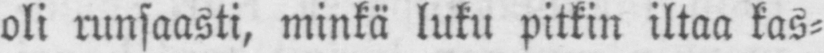oli runsaasti, minkä luku pitkin iltaa kas-
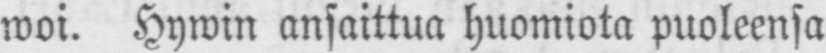woi. Hywin ansaittua huomiota puoleensa
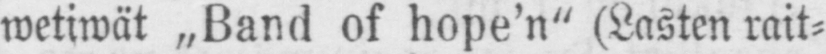wetiwät „Band of hope'n" (Lasten rait-
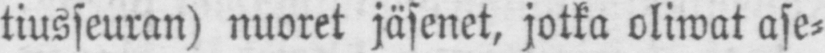tiusseuran) nuoret jäsenet, jotka oliwat ase-
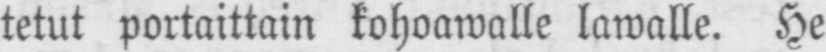tetut portaittain kohoawalle lawalle. He
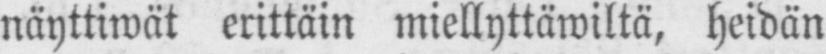näyttiwät erittäin miellyttäwiltä, heidän
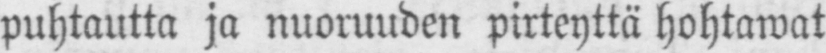puhtautta ja nuoruuden pirteyttä hohtawat
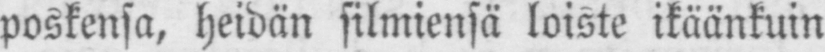poskensa, heidän silmiensä loiste ikäänkuin
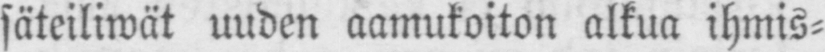säteiliwät uuden aamukoiton alkua ihmis-
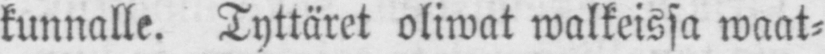kunnalle. Tyttäret oliwat walkeissa waat-
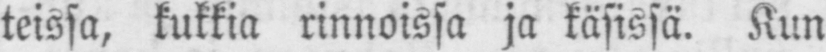teissa, kukkia rinnoissa ja käsissä. Kun
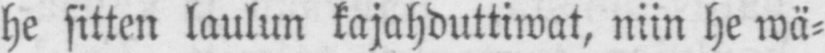he sitten laulun kajahduttiwat, niin he wä-
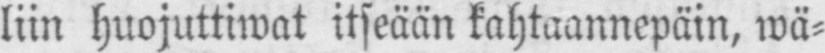liin huojuttiwat itseään kahtaannepäin, wä-
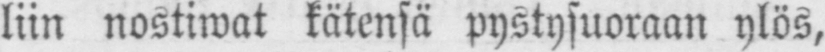liin nostiwat kätensä pystysuoraan ylös,
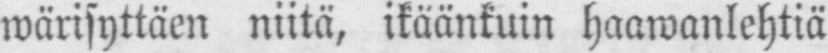wärisyttäen niitä, ikäänkuin haawanlehtiä
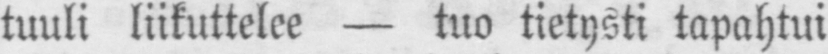tuuli liikuttelee — tuo tietysti tapahtui
